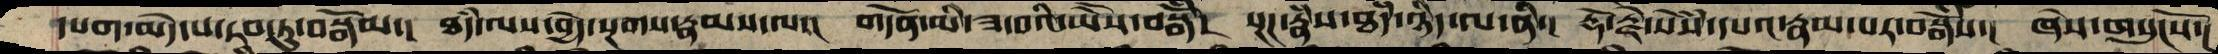དཔག་མེད་པ་རབ་ཏུ་བསྒོམ་།  ཐཾད་ལས་བྱེད་སྔགས་རྣམས་ལ་།  གདོན་མི་ཟ་བའི་ཡཻས་བསྒོཾ།  སྔཌ་རྣཾས་ཐཾད་ཉིད་ལ་ནི་།  རྡོ་རྗེ་སེཾས་དཔའ་རྣམ་པར་བསྒོཾས་།  ཞེས་གསུངསོ་།
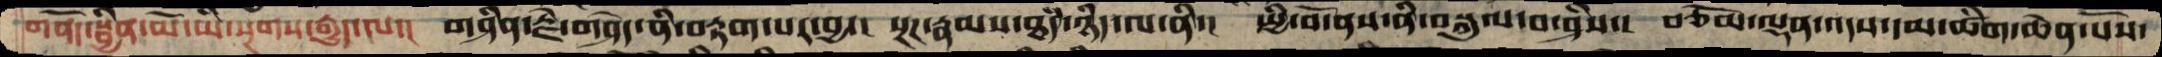གནོད་སྦྱིན་མོ་ཡི་སྔགས་རྒྱུད་ལ་།  གཤིན་རྗེ་གཤེད་ནི་བརྟག་པར་བྱ་།  སྔཌ་རྣམས་ཐཾད་ཉིད་ལ་ནི་།  སྤྱི་བོ་ནས་ནི་བསྐུལ་བ་ཤིས་།  བཅོམ་ལྡན་འདས་དམ་ཚིག་ཆེན་པོས་
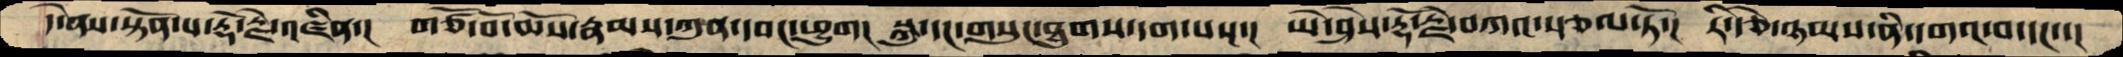དེ་ནས་སྟོན་པ་རྡོ་རྗེ་འཛིན་།   གཙོ་བོ་ཆོས་རྣམས་ཀུན་དབང་ཕྱུག།  སྐུ་དང་གསུང་ཐུགས་དག་པས་།  ཡེ་ཤེས་རྡོ་རྗེ་བཀའ་སྩལ་ཏོ་།  རི་རྩེ་ཉམས་ནི་དགའ་བ་དང་་།
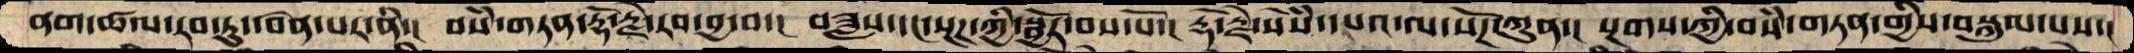ནག་ཚལ་རབ་ཏུ་དབེན་པར་ནི་།  བསཾ་གཏན་རྡོ་རྗེ་རབ་བྱ་བ་།  བཟླས་དང་སྔཌ་ཀྱི་སྦྱོར་བས་སོ་།  རྡོ་རྗེ་སེཾས་དཔའ་ལ་སོཌ་ཀུན་།  སྔགས་ཀྱི་བསཾ་གཏན་གྱིས་བསྐུལ་པས་།
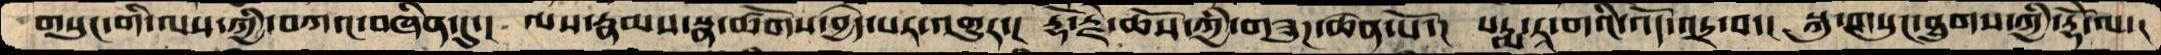གསུང་གི་ལས་ཀྱི་བཀའ་བཞིན་དུ་།  ལས་རྣམས་སྣ་ཚོགས་བྱེད་པར་འགྱུར་།  རྡོ་རྗེ་ཆོས་ཀྱི་གཟུཌ་ཆེན་པོ་།  པདྨ་རཱ་གའི་འོད་འདྲ་བ་།  སྐུ་གསུང་ཐུགས་ཀྱི་རྡོེ་ལ་།
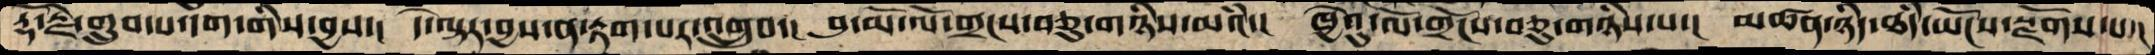རྡོ་རྗེ་གྲུབ་པ་དག་གིས་བྱས་།  དེ་ལྟར་བྱས་ན་རྟག་པར་འགྲུབ་།  བུ་མོ་ལོ་གྲངས་བཅུ་གཉིས་མའི་།  ཁྱེའུ་ལོ་གྲངས་བཅུ་གཉིས་པ་།  མཚན་ཉིད་ཐཾད་ཡོངས་སྫོགས་པ་།
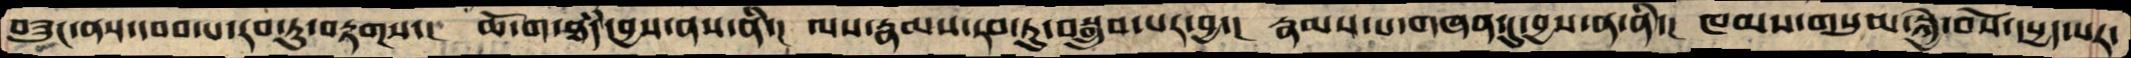བཟུང་ནས་དབབ་པ་རབ་ཏུ་བརྟགས་།   ཆོ་ག་ཐཾད་བྱས་ནས་ནི་།  ལས་རྣམས་རབ་ཏུ་བསྒྲུབ་པར་བྱ་།  རྣམས་པ་གཞན་དུ་བྱས་ན་ནི་།  ཁམས་གསུམ་སྐྱེ་བོས་དཔྱད་པར་
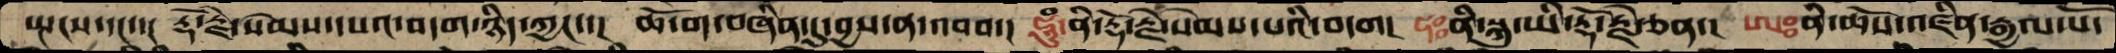སྤངས་དང་་།  རྡོ་རྗེ་སེམས་དཔའ་བདག་ཉིད་ཀྱང་་།  ཆོ་ག་བཞིན་དུ་བྱས་ན་འབབ་།  ཧཱུཾ་ནི་རྡོ་རྗེ་སེམས་པའི་བདག།  ཧཿནི་སྐུ་ཡི་རྡོ་རྗེ་ཅན་།  ཨཿནི་ཆོས་འཛིན་རྒྱལ་པོ་
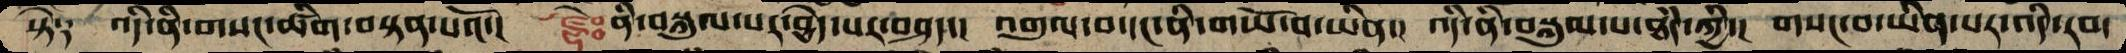སྟེ༑   འདི་ནི་གསང་ཚིག་བསྟན་པའོ་།   ཛྷེཿནི་བསྐུལ་པར་བྱེད་པར་བཤད་།  འགུལ་བ་དང་ནི་གཡོ་བ་ཡིན་།  འདི་ནི་བསྐུལ་པ་ཐཾད་ཀྱི་།  གསང་བ་ཡིན་པར་འདི་རབ་
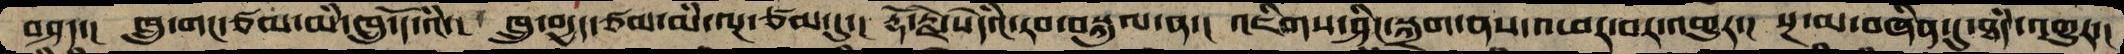བཤད་།  ཁྲུ་གང་ཙམ་མི་ཁྲུ་དོ་འཾ་།  ཁྲུ་བདྱད་ཙམ་མི་ལྔ་ཙམ་དུ་།  རྡོ་རྗེ་སེདའཾ་རབ་བསྐུལ་ན་།  འཇིགས་ཤིང་སྐྲག་ནས་འཕར་བར་འགྱུར་།  སྔ་མ་བཞིན་དུ་ཐཾད་འགྱུར་།
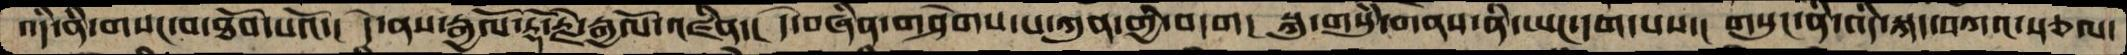འདི་ནི་གསང་བ་ཐོབ་པའོ་།  དེ་ནས་རྒྱལོ་རྡོ་རྗེ་རྒྱལོ་འཛིན་།  དེ་བཞིན་གཤེགས་པ་ཀུན་གྱི་བདག།  སྐུ་གསུཾ་གནས་ནི་ཡང་དག་པས་།  གསུང་ནི་འདི་སྐད་བཀའ་སྩལ་
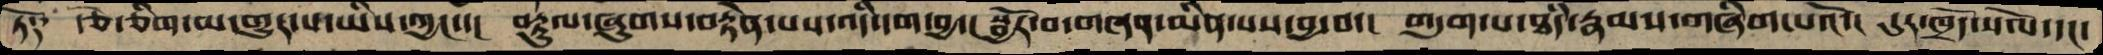ཏོ༑  རྩེ་ཅིག་མ་གྱུར་པ་ཡིས་ཀྱང་་།  བརྟུལ་ཞུགས་བརྟེན་པས་འདི་དག་བྱ་།  སྦྱོར་བ་གཞན་མིན་པས་བྱ་བ་།  གདུག་པ་ཐཾད་རྣམས་གཞིག་པའོ་།  དུར་ཁྲོད་སོལ་དང་
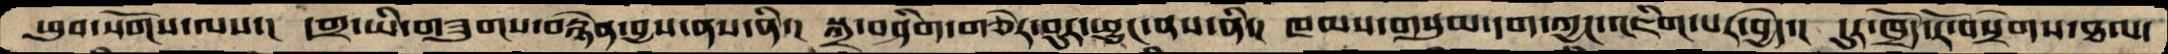ཕུབ་སོགས་ལས་།  དགྲ་ཡི་གཟུགས་བརྙེན་བྱས་ནས་ནི་།  སྐྲ་བཤིག་གཅེར་བུར་ཕྱུང་ནས་ནི་།  ཁམས་གསུམ་དག་ཀྱང་འཇིག་པར་བྱེད་།  དུར་ཁྲོད་རོ་བསྲེགས་ཐལ་
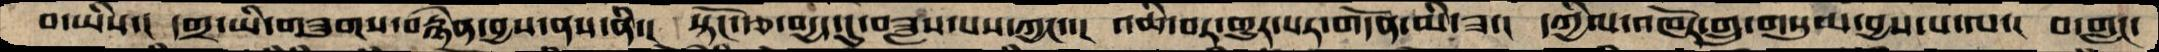བ་ཡིས་།  དགྲ་ཡི་གཟུགས་བརྙེན་བྱས་ནས་ནི་།   སྟོང་རྩ་བདྱད་དུ་བཟླས་པས་ཀྱང་་།  འཆི་བར་གྱུར་པར་གདོན་མི་ཟ་།  དཀྱིལ་འཁོར་གྲུ་གསུམ་བྱས་པ་ལ་།  བ་གླང་
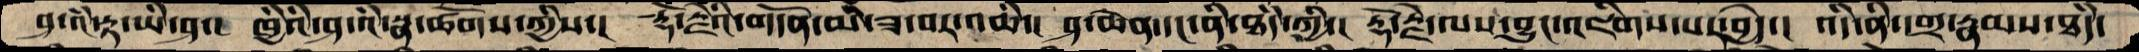ཤ་འཾ་རྟ་ཡི་ཤ་།  ཁྱིའི་ཤ་འཾ་སྣ་ཚོགས་ཀྱིས་།  རྡོ་རྗེའི་གདོན་མི་ཟ་བར་འཆི་།  ཤ་ཆེན་དང་ནི་ཐཾད་ཀྱི་།  རྡོ་རྗེ་ལས་བྱུང་འཇིགས་པར་བྱེད་།  འདི་ནི་དགྲ་རྣམས་ཐཾད་
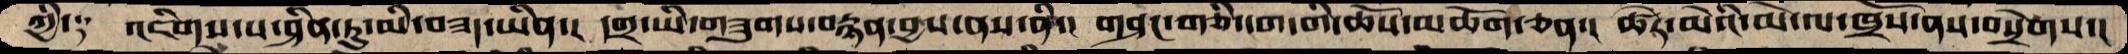ཀྱི༑   འཇིགས་པ་ཤིན་ཏུ་མི་བཟད་ཡིན་།  དགྲ་ཡི་གཟུགས་བརྙན་བྱས་ནས་ནི་།  གཤང་གཅི་ངག་གི་ཆོས་མཆོག་ཅན་།  ཚེར་མེའི་མེ་ལ་ཁྲོས་ནས་བསྲེགས་།
